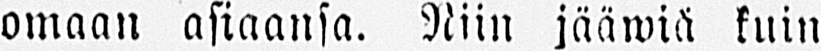omaan asiaansa. Niin jääwiä kuin
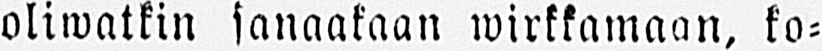oliwatkin sanaakaan wirkkamaan, ko-
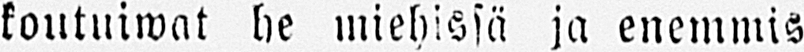koutuiwat he miehissä ja enemmis-
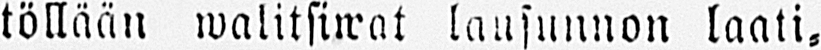töllään walitsiwat lausunnon laati-
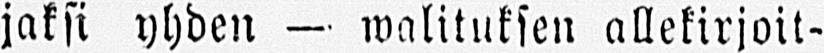jaksi yhden — walituksen allekirjoit-
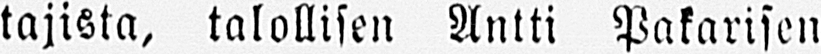tajista, talollisen Antti Pakarisen
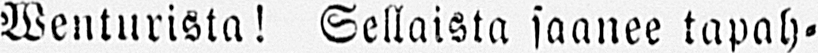Wenturista! Sellaista saanee tapah-
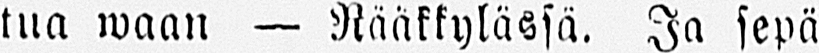tua waan — Rääkkylässä. Ja sepä
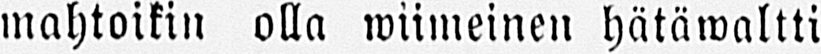mahtoikin olla wiimeinen hätäwaltti
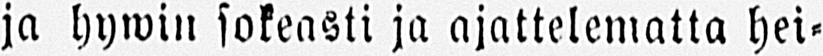ja hywin sokeasti ja ajattelematta hei-
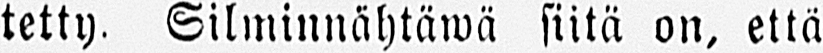tetty. Silminnähtäwä siitä on, että
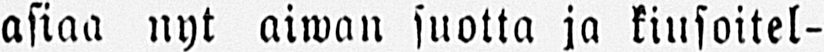asiaa nyt aiwan suotta ja kiusoitel-
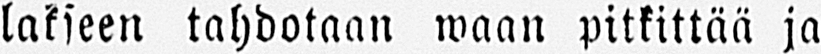lakseen tahdotaan waan pitkittää ja
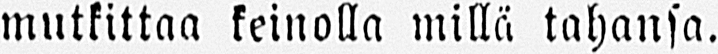mutkittaa keinolla millä tahansa.
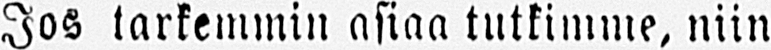Jos tarkemmin asiaa tutkimme, niin
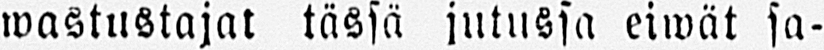wastustajat tässä jutussa eiwät sa-
